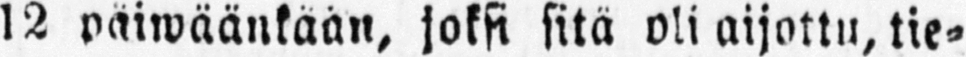12 paiwäänkaän, joksi sitä oli aijottu, tie-
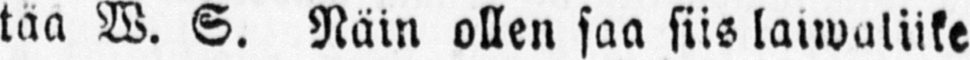tää W. S. Näin ollen saa siis laiwaliike
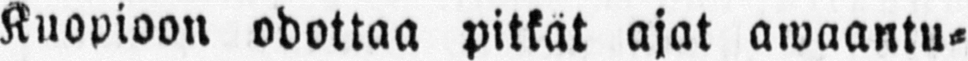Kuopioon odottaa pitkät ajat awaantu-
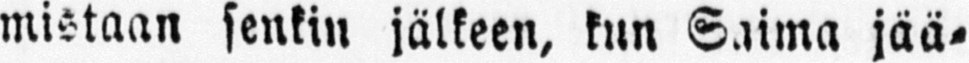mistaan senkin jälkeen, kun Saima jää-
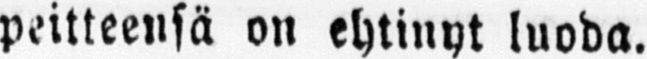peitteensä on ehtinyt luoda.
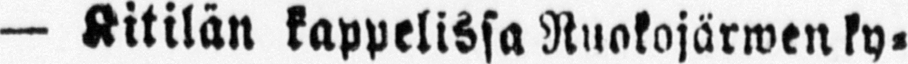— Kitilän kappelissa Nuokojärwen ky-
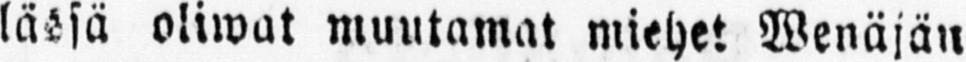lässä oliwat muutamat miehet Wenäjän
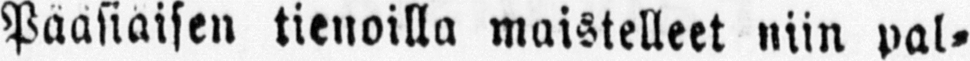Pääsiäisen tienoilla maistelleet niin pal-
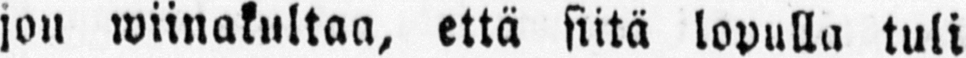jon wiinakultaa, että siitä lopulla tuli
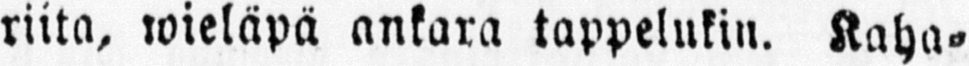riita, wieläpä ankara tappelukin. Kaha-
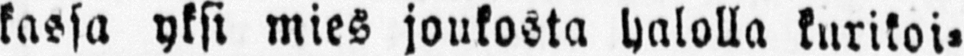kassa yksi mies joukosta halolla kuriko-
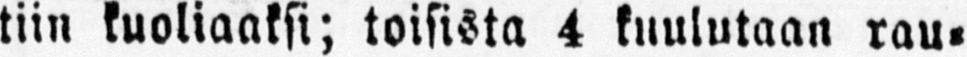tiin kuoliaaksi; toisista 4 kuulutaan rau-
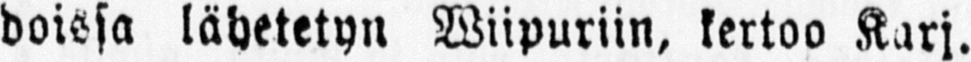doissa lähetetyn Wiipuriin, kertoo Karj.
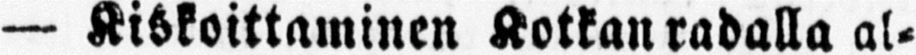— Kiskoittaminen Kotkan radalla al-
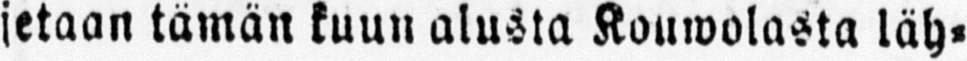jetaan tämän kuun alusta Kouwolasta läh-
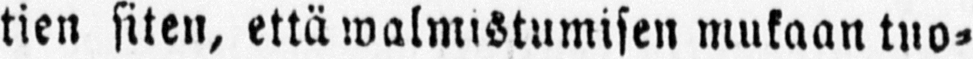tien siten, että walmistumisen mukaan tuo-
